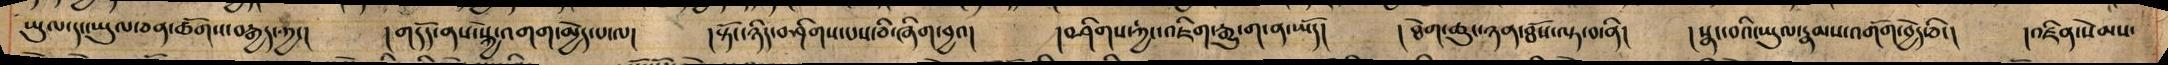ཡུལ་དང་ཡུལ་ཅན་ཚོགས་བརྒྱད་ཀྱང། །གདོད་ནས་སྐྱེ་འགག་མྱེད་པ་ལ། །སྟོང་ཉིད་བཤིགས་པས་ཅི་ཞིག་བྱའ། །བཤིགས་ཀྱང་འཇིག་རྒྱུ་ག་ན་ཡོད། །ཐེག་ཆུ་ཉན་ཐོས་ལྟ་བ་ནི། །སྣང་བའི་ཡུལ་རྣམས་འགོག་བྱེད་ཅིང། །འཛིན་སེམས་
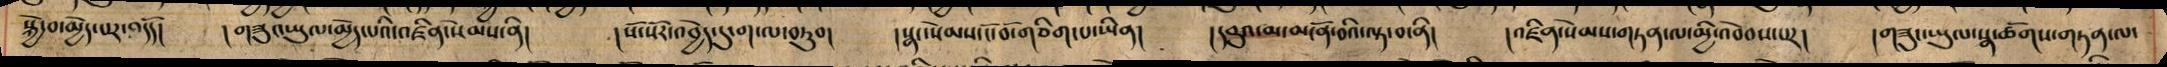སྐྱེ་བ་མྱེད་པར་འདོད། །གཟུང་ཡུལ་མྱེད་པའི་འཛིན་སེམས་ནི། །སོ་སོར་འབྱེད་དུ་ག་བཏུབ། །སྣང་སེམས་ངོ་བོ་གཅིག་པ་ཡིན། །དབུའ་མ་མངོན་བའི་ལྟ་བ་ནི། །འཛིན་སེམས་གཏན་ལ་མྱི་འབེབས་པར། །གཟུང་ཡུལ་སྣ་ཚོགས་གཏན་ལ་
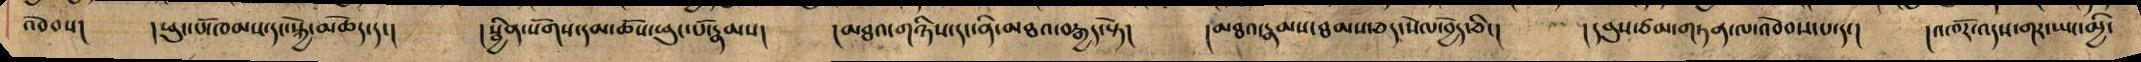འབེབས། །ཕུང་པོ་ཁམས་དང་སྐྱེ་མཆེད་དང། །སྦྱིན་སོགས་དམ་ཆོས་ཕུང་པོ་རྣམས། །མཐའ་གཉིས་དང་ནི་མཐའ་བརྒྱད་སྟེ། །མཐའ་རྣམས་ཐམས་ཅད་སེལ་བྱེད་ཅིང། །དབུས་ཙམ་གཏན་ལ་འབེབས་པ་དང། །འཁོར་འདས་གར་ཡང་མྱི་
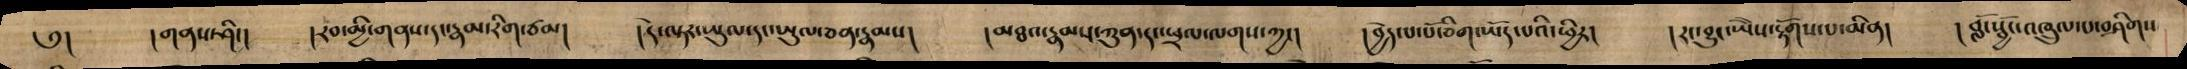༅། །།གནས་ཤིང། །རབ་མྱི་གནས་དང་རྣམ་རིག་ཙམ། །དེ་ལྟར་ཡུལ་དང་ཡུལ་ཅན་རྣམས། །མཐའ་རྣམས་ཀུན་དང་ཕྲལ་ལགས་ཀྱང། །བྱེད་པ་པོ་ཅིག་ཡོད་པའི་ཕྱིར། །རང་བྱུང་ཡཻས་རྟོགས་པ་མིན། །བློ་སྦྱོང་འཁྲུལ་པ་བཤིགས
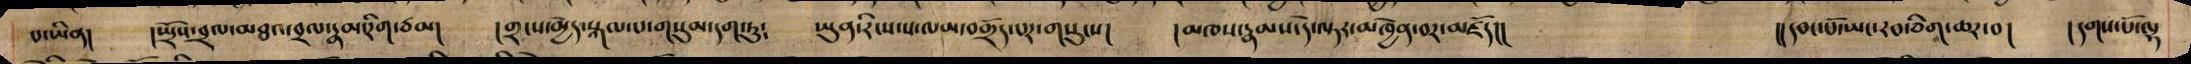པ་ཡིན། །སྤྲོས་བྲལ་མཐའ་བྲལ་རྣམ་རིག་ཙམ། །གྲངས་མྱེད་སྐལ་པ་གསུམ་དག་ཏུ༴ ཡུན་རིངས་ས་ལམ་བགྲོད་པར་གསུངས། །མཁས་རྣམས་དེ་ལྟར་མཁྱེན་བར་མཛོད།། །།དབང་པོ་ཡང་རབ་ཅིག་ཆར་བ། །དགས་པོ་ལྷ
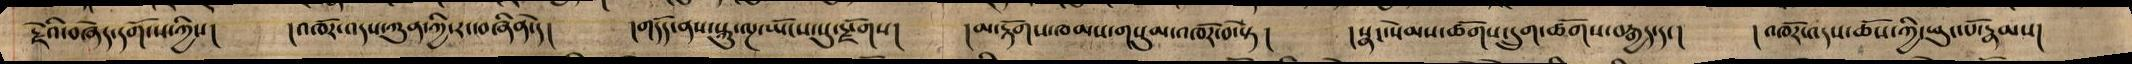རྗེའི་བཞེད་དགོངས་ཀྱིས། །འཁོར་འདས་ཀུན་ཀྱི་རང་བཞིན་དེ། །གདོད་ནས་སྐུ་ལྔ་ཡོངས་སུ་སྫོགས། །མ་རྟོགས་ཁམས་གསུམ་འཁོར་བ་སྟེ། །སྣང་སེམས་ཚོགས་དྲུག་ཚོགས་བརྒྱད་དང། །འཁོར་འདས་ཆོས་ཀྱི་ཕུང་པོ་རྣམས།
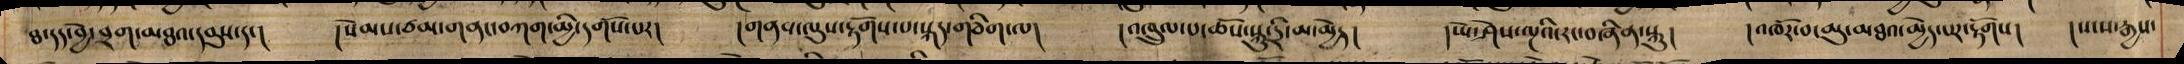ཐ་དད་བྱེ་བྲག་མཐའ་དབུས་དང། །སེམས་ཙམ་གནང་བཀག་མྱི་དགོས་པར། །གནས་ལུས་རྟོགས་པ་སྐད་གཅིག་ལ། །འཁྲུལ་པ་ཆོས་སྐུ་དྲི་མ་མྱེད། །ཡེ་ཤེས་ལྔའི་རང་བཞིན་སྐུ། །འཁོར་བ་མུ་མཐའ་མྱེད་པར་རྟོགས། །སངས་རྒྱས་
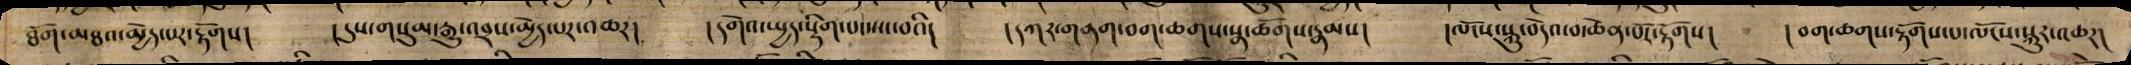ཐོག་མཐའ་མྱེད་པར་རྟོགས། །དུས་གསུམ་རྒྱུ་འབྲས་མྱེད་པར་འཆར། །དགེའ་སྤྱད་སྡིག་པ་ཡང་བའི། །དཀར་ནག་བག་ཆགས་སྣ་ཚོགས་རྣམས། །ལོངས་སྐུ་བདེའ་བ་ཆེན་པོར་རྟོགས། །བག་ཆགས་རྟོགས་པ་ལོངས་སྐུར་འཆར།
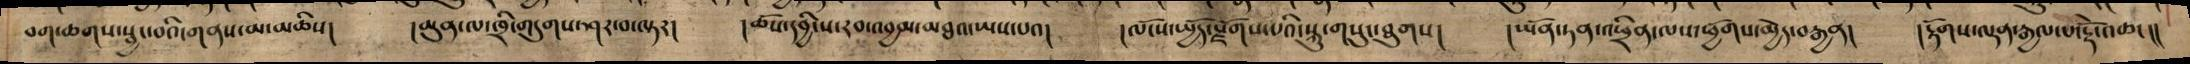བག་ཆགས་སྦྱང་བའི་གནས་མ་མཆིས། །མུན་ལ་ཁྲི་གདུགས་ཤར་བ་ལྟར། །ཆོས་དབྱིངས་རབ་འབྱམ་མཐའ་ཡས་པའ། །ལོངས་སྤྱོད་སྫོགས་པའི་སྐུ་གསུང་ཐུགས། །ཡོན་ཏན་འཕྲིན་ལས་ཕྱོགས་མྱེད་བརྒྱན། །རྟོགས་ལྡན་རྒཡལ་པ་རྡོེ་འཆང།།
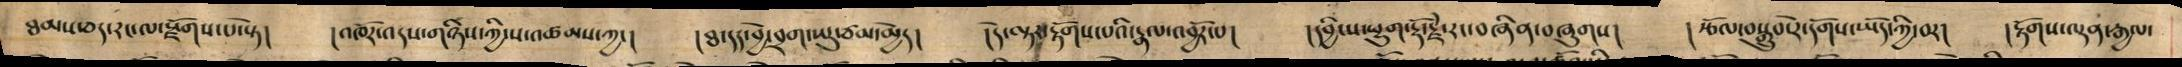ཐམས་ཅད་རང་ལ་སྫོགས་པ་སྟེ། །འཁོར་འདས་གཉིས་ཀྱི་ས་འཚམས་ཀྱང། །ཐ་དད་བྱེ་བྲག་སྤུ་ཙམ་མྱེད། །དེ་ལྟར་རྟོགས་པའི་རྣལ་འབྱོར་པ། དབྱིངས་ཕྱུག་རྡོ་རྗེ་རང་བཞིན་བཞུགས། །རྩོལ་བསྒྲུབ་རེ་དོགས་ཡོད་ཀྱི་བར། །རྟོགས་ལྡན་རྒྱལ་
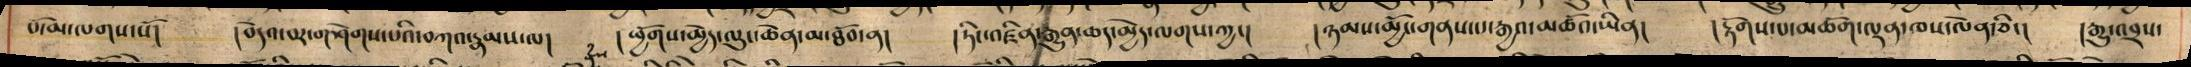པོ་མ་ལགས་སོ།   །བདེའ་བར་གཤེགས་པའི་བཀའ་རྣམས་ལ།   ཕྱོགས་མྱེད་ལུང་ཆེན་མ་ཐོབ་ན།   །ཏིང་འཛིན་རྒྱུན་ཆད་མྱེད་ལགས་ཀྱང།   །ཉམས་མྱོང་གནས་པ་རྒྱའ་མཚོའ་ཡིན།   །རྟོགས་པ་མཆོག་ལྡན་ཁས་ལེན་ཅིང།  །རྒྱུ་འབྲས་
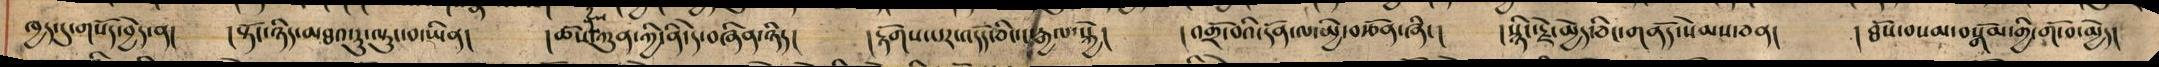ཁྱད་དུ་གསོད་བྱེད་ན། །སྟོང་ཉིད་མཐའ་རུ་ལྟུང་བ་ཡིན། །ཆོས་ཀུན་ཀྱི་ནི་དེ་བཞིན་ཉིད། །རྟོགས་པར་འདོད་ཅིང་ང་རྒྱལ་སྐྱེ། །འགྲོ་བའི་དོན་ལ་མྱི་བརྩོན་ཞིང། །སྙིང་རྗེ་མྱེད་ཅིང་གནོད་སེམས་ཅན། །ཐོས་བསམ་བསྒོམ་གྱི་གོ་བ་མྱེད།
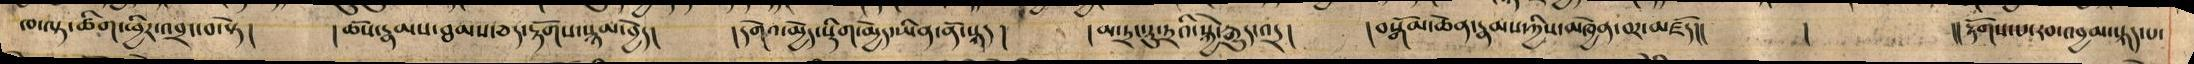ཁ་ལྟ་ཚིག་ཕྱིར་འབྲང་བ་སྟེ། །ཆོས་རྣམས་ཐམས་ཅད་རྟོགས་སྙམ་བྱེད། །དགེའ་མྱེད་སྡིག་མྱེད་ཡིན་ནོ་སྐད། །མ་ཏྲ་རུ་ཏྲའི་སྐྱེ་རྒྱུད་འདྲ། །བསྒོམ་ཆེན་རྣམས་ཀྱིས་མཁྱེན་བར་མཛོད།། ། །།རྟོགས་པ་རབ་འབྱམ་སྐད་པ་
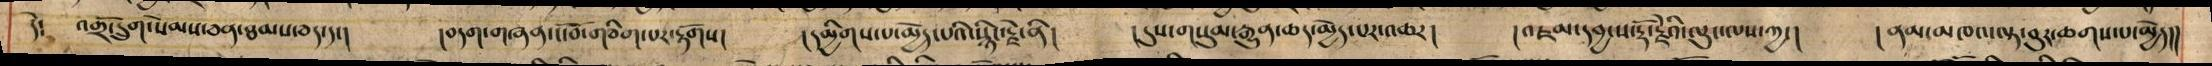དེ༴ འགྲོ་དྲུག་སེམས་ཅན་ཐམས་ཅད་དང། །བདག་གཞན་ངོ་བོ་གཅིག་པར་རྟོགས། །དམྱིགས་པ་མྱེད་པའི་སྙིང་རྗེ་ནི། །དུས་གསུམ་རྒྱུན་ཆད་མྱེད་པར་འཆར། །འཇམ་དབྱངས་རྡོ་རྗེའི་ལུང་ལས་ཀྱང། །ནམ་མལཁའ་ལྟ་བུར་ཆགས་པ་མྱེད།།
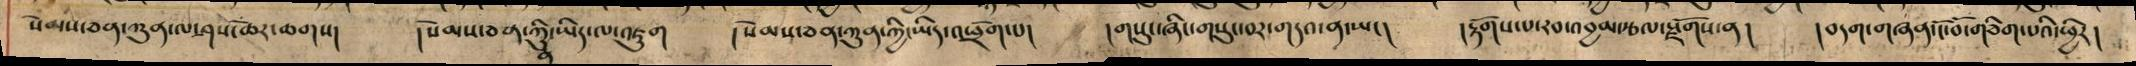སེམས་ཅན་ཀུན་ཤས་ཆེར་ཆགས།  །སེམས་ཅན་ཀུན་གྱི་ཡིད་ལ་འཇུག   །སེམས་ཅན་ཀུན་ཀྱི་འཕྲོག་པ།  །གསུང་ཞིང་གསུང་བར་གདའ་ན་ཡང།   །རྟོགས་པ་རབ་འབྱམ་རྩལ་རྫོགས་ན།   །བདག་གཞན་ངོ་བོ་གཅིག་པའི་ཕྱིར།
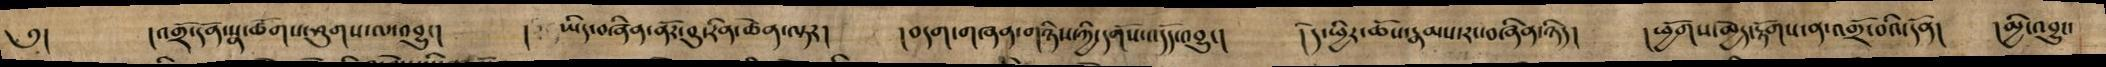༅། །འགྲོ་དོན་སྣ་ཚོགས་ཤུགས་ལ་འབྱུང། ། ཡིད་བཞིན་ནོར་བུ་རིན་ཆེན་ལྟར། །བདག་གཞན་གཉིས་ཀྱི་དགོས་འདོད་འབྱུང། །དེ་ཕྱིར་ཆོས་རྣམས་རང་བཞིན་ཉིད། །ཕྱོགས་མྱེད་རྟོགས་ན་འགྲོ་བའི་དོན། །མྱི་འབྱུང་
